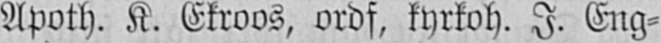Apoth. K. Ekroos, ordf, kyrkoh. I. Eng-
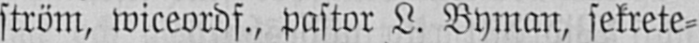ström, wiceordf., pastor L. Byman, sekrete-
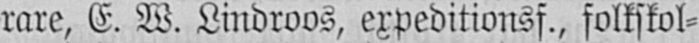rare, E. W. Lindroos, expeditionsf., folkskol-
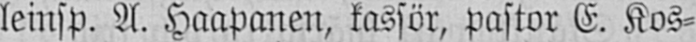leinsp. A. Haapanen, kassör, pastor E. Kos-
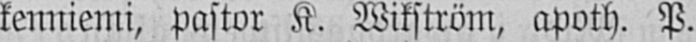kenniemi, pastor K. Wikström, apoth. P.
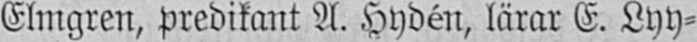Elmgren, predikant A. Hydén, lärar E. Lyy-
